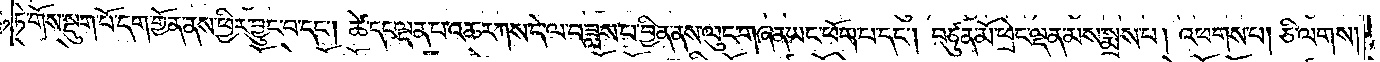ཏེ་གོས་སྡུག་པོ་དག་གྱོན་ནས་ཕྱིར་བྱུང་བ་དང༌། ཚེ་དང་ལྡན་པ་འཆར་ཀས་དེ་ལ་བཟླས་པ་བྱིན་ནས་ལུང་གཞན་ཡང་ཕོག་པ་དང༌། བཙུན་མོ་ཕྲེང་ལྡན་མས་སྨྲས་པ། འཕགས་པ། ཅི་ལགས།
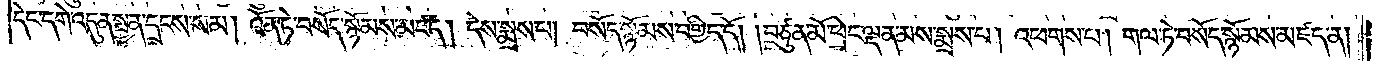དེང་དགེ་འདུན་སྤྱན་དྲངས་སམ། འོན་ཏེ་བསོད་སྙོམས་མཛད། དེས་སྨྲས་པ། བསོད་སྙོམས་བགྱིད་དོ། །བཙུན་མོ་ཕྲེང་ལྡན་མས་སྨྲས་པ། འཕགས་པ། གལ་ཏེ་བསོད་སྙོམས་མཛད་ན།
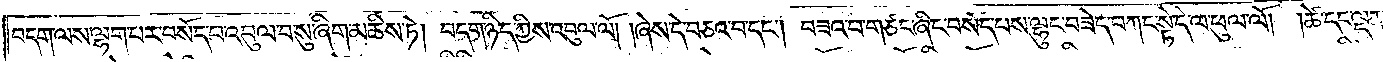བདག་ལས་ལྷག་པར་བསོད་པ་འབུལ་བ་སུ་ཞིག་མཆིས་ཏེ། བདག་ཉིད་ཀྱིས་འབུལ་ལོ། །ཞེས་དེ་བཅའ་བ་དང༌། བཟའ་བ་གཙང་ཞིང་བསོད་པས་ལྷུང་བཟེད་བཀང་སྟེ་དེ་ལ་ཕུལ་ལོ། །ཚེ་དང་ལྡན་
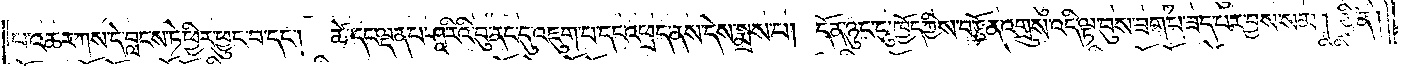པ་འཆར་ཀས་དེ་བླངས་ཏེ་ཕྱིར་ཕྱུང་བ་དང༌། ཚེ་དང་ལྡན་པ་ཤཱ་རིའི་བུ་ནང་དུ་འཇུག་པ་དང་འཕྲད་ནས་དེས་སྨྲས་པ། དོན་ཉུང་ངུ་ཁྱོད་ཀྱིས་བརྩོན་འགྲུས་འདི་ལྟ་བུས་ཟག་པ་ཟད་པར་བྱས་སམ། ཅི་ན།
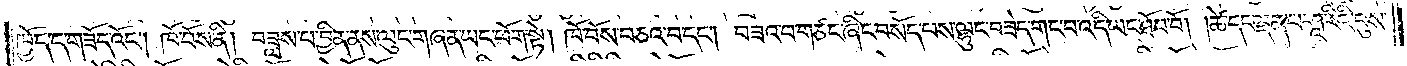ཁྱོད་ད་གཟོད་འོང༌། ཁོ་བོས་ནི། བཟླས་པ་བྱིན་ནས་ལུང་གཞན་ཡང་ཕོག་སྟེ། ཁོ་བོས་བཅའ་བ་དང༌། བཟའ་བ་གཙང་ཞིང་བསོད་པས་ལྷུང་བཟེད་གང་བ་འདི་ཡང་ཐོབ་བོ། །ཚེ་དང་ལྡན་པ་ཤཱ་རིའི་བུས་
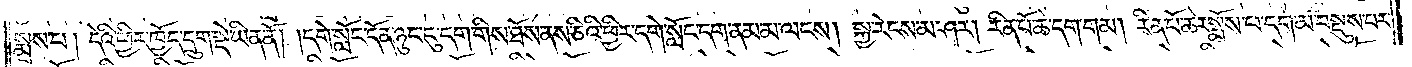སྨྲས་པ། དེའི་ཕྱིར་ཁྱོད་དྲུག་སྡེ་ཡིན་ནོ། །དགེ་སློང་དོན་ཉུང་ངུ་དག་གིས་ཐོས་ནས་ཅིའི་ཕྱིར་དགེ་སློང་དག་ནམ་མ་ལངས། སྐྱ་རེངས་མ་ཤར། རིན་པོ་ཆེ་དག་གམ། རིན་པོ་ཆེར་སྨོས་པ་དག་མ་བསྡུས་པར་
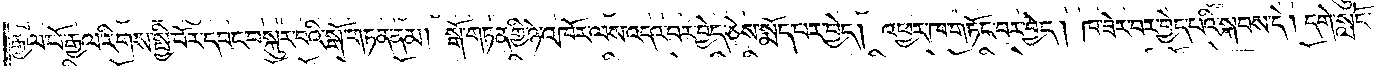རྒྱལ་པོ་རྒྱལ་རིགས་སྤྱི་བོར་དབང་བསྐུར་བའི་སྒོ་གཏན་ནམ། སྒོ་གཏན་གྱི་ཉེ་འཁོར་ལས་འདའ་བར་བྱེད་ཅེས་སྨོད་པར་བྱེད། འཕྱར་ཁ་གཏོང་བར་བྱེད། ཁ་ཟེར་བར་བྱེད་པའི་སྐབས་དེ། དགེ་སློང་
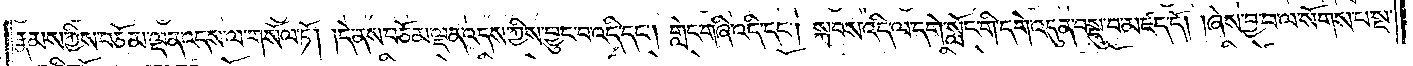རྣམས་ཀྱིས་བཅོམ་ལྡན་འདས་ལ་གསོལ་ཏོ། །དེ་ནས་བཅོམ་ལྡན་འདས་ཀྱིས་བྱུང་བ་འདི་དང༌། གླེང་གཞི་འདི་དང༌། སྐབས་འདི་ལ་དགེ་སློང་གི་དགེ་འདུན་བསྡུ་བ་མཛད་དོ། །ཞེས་བྱ་བ་ལ་སོགས་པ་སྔ་
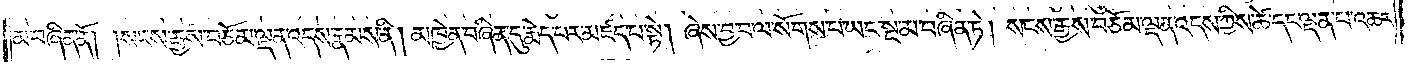མ་བཞིན་ནོ། །སངས་རྒྱས་བཅོམ་ལྡན་འདས་རྣམས་ནི། མཁྱེན་བཞིན་དུ་རྨེད་པར་མཛད་པ་སྟེ། ཞེས་བྱ་བ་ལ་སོགས་པ་ཡང་སྔ་མ་བཞིན་ཏེ། སངས་རྒྱས་བཅོམ་ལྡན་འདས་ཀྱིས་ཚེ་དང་ལྡན་པ་འཆར་
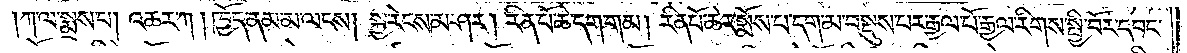ཀ་ལ་སྨྲས་པ། འཆར་ཀ། ཁྱོད་ནམ་མ་ལངས། སྐྱ་རེངས་མ་ཤར། རིན་པོ་ཆེ་དག་གམ། རིན་པོ་ཆེར་སྨོས་པ་དག་མ་བསྡུས་པར་རྒྱལ་པོ་རྒྱལ་རིགས་སྤྱི་བོར་དབང་
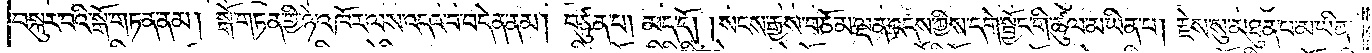བསྐུར་བའི་སྒོ་གཏན་ནམ། སྒོ་གཏན་གྱི་ཉེ་འཁོར་ལས་འདའ་བ་བདེན་ནམ། བཙུན་པ། མད་དོ། །སངས་རྒྱས་བཅོམ་ལྡན་འདས་ཀྱིས་དགེ་སྦྱོང་གི་ཚུལ་མ་ཡིན་པ། རྗེས་སུ་མཐུན་པ་མ་ཡིན་
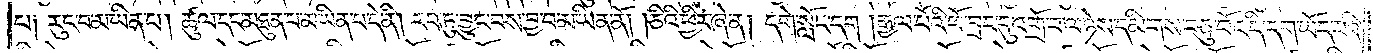པ༑ རུང་བ་མ་ཡིན་པ། ཚུལ་དང་མཐུན་པ་མ་ཡིན་པ་དེ་ནི། རབ་ཏུ་བྱུང་བས་བྱ་བ་མ་ཡིན་ནོ། །ཅིའི་ཕྱིར་ཞེ་ན། དགེ་སློང་དག །རྒྱལ་པོའི་ཕོ་བྲང་དུ་འགྲོ་བ་ལ་ཉེས་དམིགས་བཅུ་པོ་འདི་དག་ཡོད་པའི་
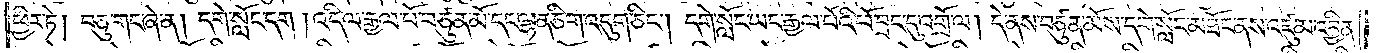ཕྱིར་ཏེ། བཅུ་གང་ཞེ་ན། དགེ་སློང་དག །འདི་ལ་རྒྱལ་པོ་བཙུན་མོ་དང་ལྷན་ཅིག་འདུག་ཅིང༌། དགེ་སློང་ཡང་རྒྱལ་པོའི་ཕོ་བྲང་དུ་འགྲོ་ལ། དེ་ནས་བཙུན་མོས་དགེ་སློང་མཐོང་ནས་འཛུམ་འབྱིན་
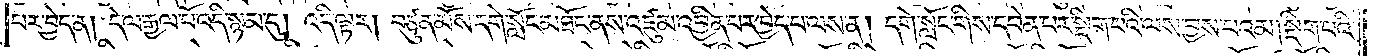པར་བྱེད་ན། དེ་ལ་རྒྱལ་པོ་འདི་སྙམ་དུ། འདི་ལྟར། བཙུན་མོས་དགེ་སློང་མཐོང་ནས་འཛུམ་འབྱིན་པར་བྱེད་པ་ལས་ན། དགེ་སློང་གིས་དབེན་པར་སྡིག་པའི་ལས་བྱས་པའམ། སྡིག་པའི་
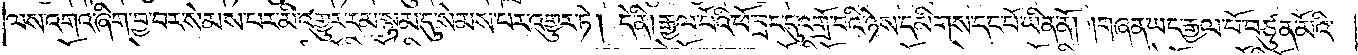ལས་འགའ་ཞིག་བྱ་བར་སེམས་པར་མི་འགྱུར་རམ་སྙམ་དུ་སེམས་པར་འགྱུར་ཏེ། དེ་ནི། རྒྱལ་པོའི་ཕོ་བྲང་དུ་འགྲོ་བའི་ཉེས་དམིགས་དང་པོ་ཡིན་ནོ། །གཞན་ཡང་རྒྱལ་པོ་བཙུན་མོའི་
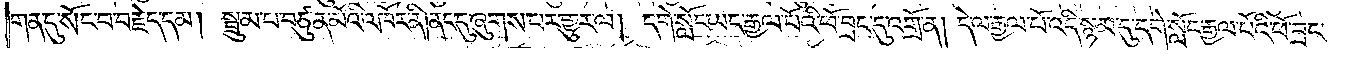གན་དུ་སོང་བ་བརྗེད་དམ། སྦྲུམ་པ་བཙུན་མོའི་འཁོར་ནི་ནང་དུ་ཞུགས་པར་གྱུར་ལ། དགེ་སློང་ཡང་རྒྱལ་པོའི་ཕོ་བྲང་དུ་འགྲོ་ན། དེ་ལ་རྒྱལ་པོ་འདི་སྙམ་དུ་དགེ་སློང་རྒྱལ་པོའི་ཕོ་བྲང་
